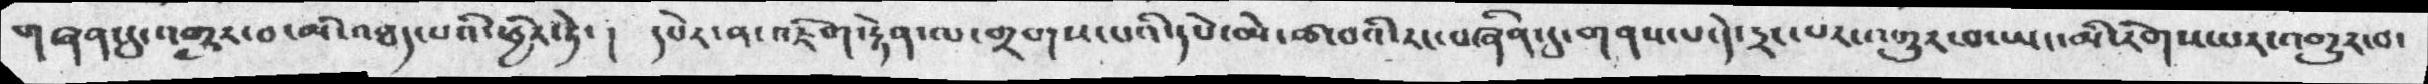གཞན་དུ་འགྱུར་བ་མི་འཐད་པའི་ཕྱིར་ཏེ་།  དཔེར་ན་འཇིག་རྟེན་ལ་གྲགས་པའི་དཔེ་མེ་ཚ་བའི་རང་བཞིན་དུ་གནས་པ་དེ་དྲང་པར་འགྱུར་བ་ཡང་མི་རིགས་པར་འགྱུར་བ་
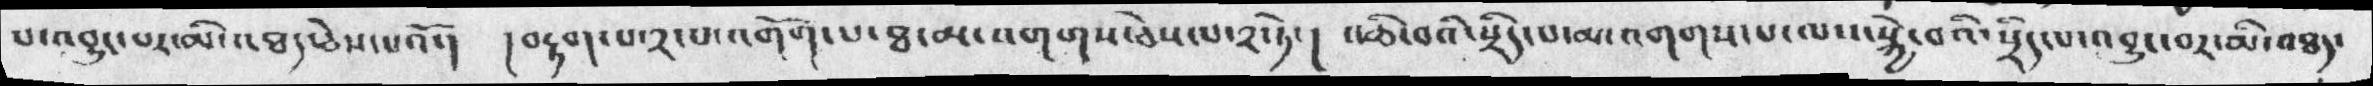པ་འབྱུང་པར་མི་འཐད་ཅེས་པའོ་།  །བརྟག་པ་༢་པ་འགོག་པ་ཐ་མ་འགག་ཅེས་པ་༢་ཏེ་།  འཆི་བའི་སྲིད་པ་མ་འགགས་པ་ལས་སྐྱེ་བའི་སྲིད་པ་འབྱུང་བར་མི་འཐད་
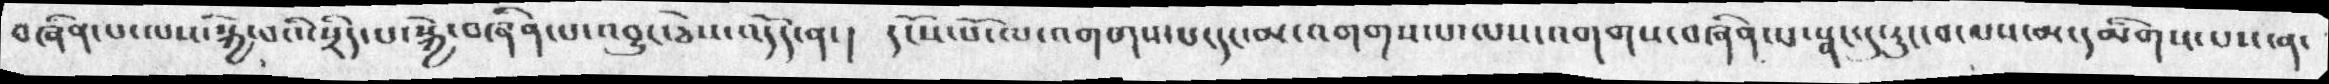བཞིན་པ་ལས་སྐྱེ་བའི་སྲིད་པ་སྐྱེ་བཞིན་པ་འབྱུང་ཅེས་འདོད་ན་། དངོས་པོ་ལ་འགགས་པ་དང་མ་འགགས་པ་ལས་འགགས་བཞིན་པ་སྣང་དུ་རུང་བ་པས་མ་དམིགས་པས་ན་
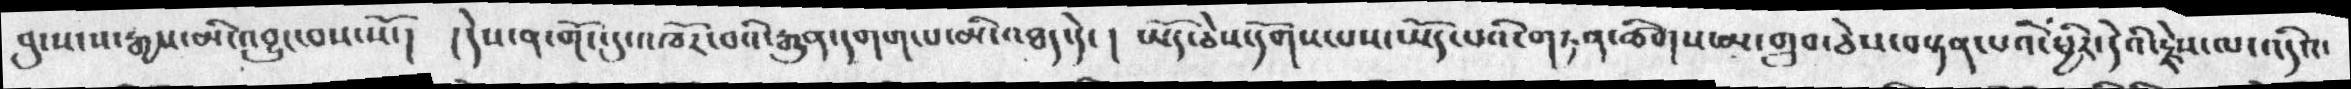བུ་སངས་རྒྱས་མི་འབྱུང་བས་སོ་།  །དེས་ན་གོང་དུ་འཁོར་བའི་རྒྱུན་དགག་པ་མི་འཐད་དེ་།  ཡོད་ཅེས་དོགས་པས་ཡོད་པའི་གཏན་ཚིགས་མ་གྲུབ་ཅེས་བསྟན་པའི་ཕྱིར་དེའི་རྗེས་ལ་འདིའ་
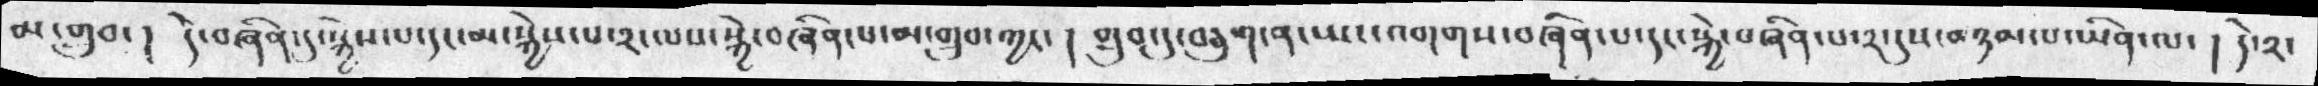མ་གྲུབ་། དེ་བཞིན་དུ་སྐྱེས་པ་དང་མ་སྐྱེས་པ་༢་ལས་སྐྱེ་བཞིན་པ་མ་གྲུབ་ཀྱང་།  གྲུབ་དུ་བཅུག་ན་ཡང་འགགས་བཞིན་པ་དང་སྐྱེ་བཞིན་པ་༢་དུས་མཉམ་པ་ཡིན་ལ་། དེ་༢་
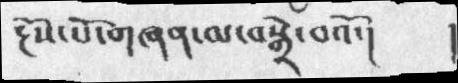རྔོས་པོ་གཞཉ་ལ་བསྒྲེ་བའོ་།  །
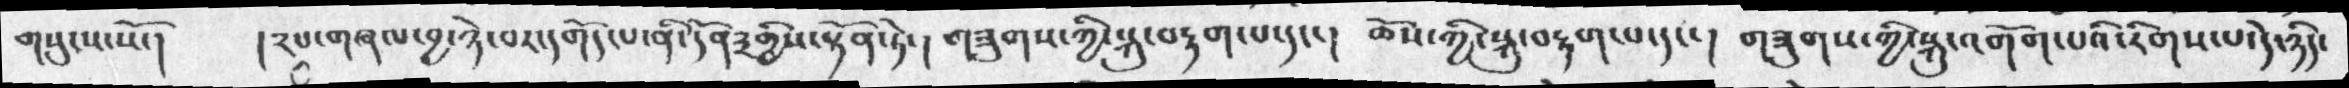གསུངས་སོ་།  །༢པ་གཞལ་བྱ་ཉེ་བར་དགོད་པ་ནི་དོན༣གྱིས་སྟོན་ཏེ་། ཆོས་ཀྱི་སྐུ་བརྟག་པ་དང་། གཟུགས་ཀྱི་སྐུ་འགོག་པའི་རིགས་པ་དེ་ཉིད་
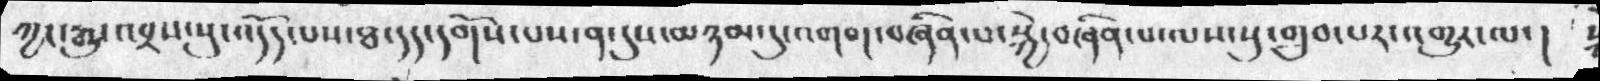ཀྱང་རྒྱུ་འབྲས་སུ་འདོད་པས་ཐ་དད་དགོས་པས་ན་དུས་མཉམ་དུ་འགག་བཞིན་པ་སྐྱེ་བཞིན་པ་ལས་སུ་གྲུབ་པར་འགྱུར་ལ་།
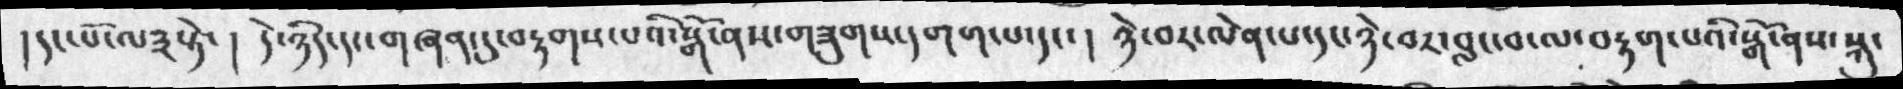།དང་པོ་ལ༣སྟེ་། དེ་ཉིད་དང་གཞན་དུ་བརྟགས་པའི་སྒོ་ནས་གཟུགས་དགག་པ་དང་། ཉེ་བར་ལེན་པ་དང་ཉེ་བར་བླང་བ་ལ་བརྟག་པའི་སྒོ་ནས་སྐུ་
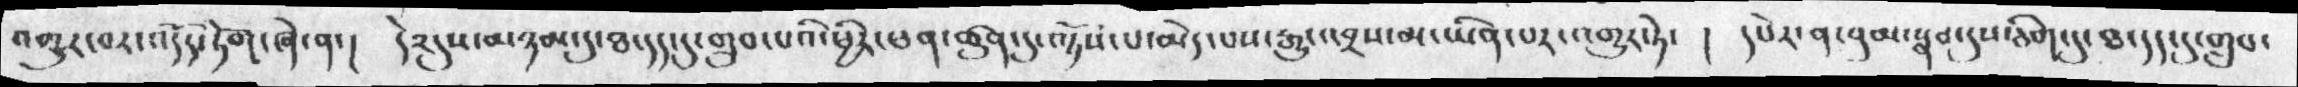འགྱུར་བར་འདོད་ཏོག་ཞེ་ན་། དེ༢དུས་མཉམ་དུ་ཐ་དད་དུ་གྲུབ་པའི་ཕྱིར་ཕན་ཚུན་དུ་ལྟོས་པ་མེད་པས་རྒྱུ་འབྲས་མ་ཡིན་པར་འགྱུར་ཏེ་ །  དཔེར་ན་བུམ་སྣབ་དུས་ཅིག་དུ་ཐ་དད་དུ་གྲུབ་
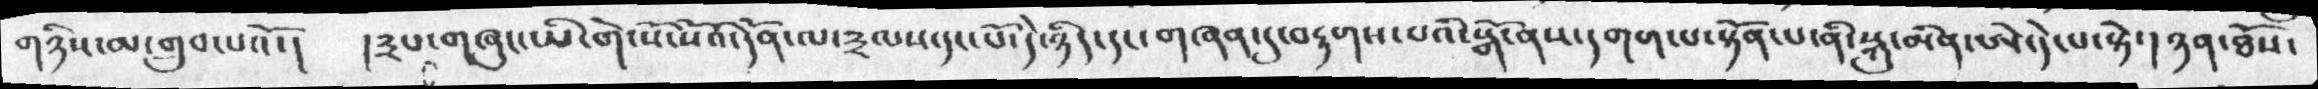གཉིས་མ་གྲུབ་པའོ་།  །༣པ་གཞུང་ཡི་གེ་སོ་སོའི་དོན་ལ་༣ལས་དང་པོ་དེ་ཉིད་དང་གཞན་དུ་བརྟགས་པའི་སྒོ་ནས་དགག་པ་སྟོན་པ་ནི་སྐུ་མིན་ཨེ་དེ་པ་སྟེ་།ཉན་ཐོས་
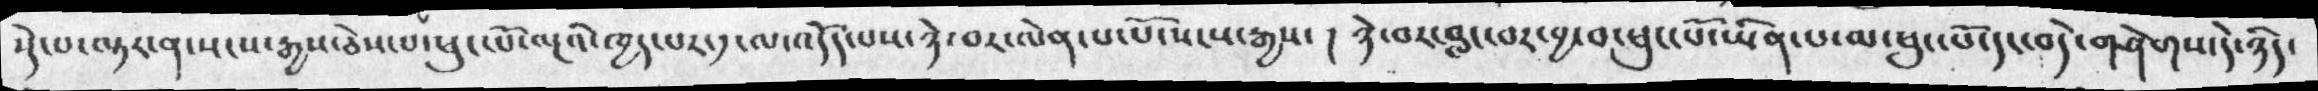སྡེ་པ་ལྟར་ན་སངས་རྒྱས་ཅེས་པ་ཕུང་པོ་ལྔའི་ཁྱད་པར་༡་ལ་འདོད་པས་ཉེ་བར་ལེན་པ་པོ་སངས་རྒྱས་། ཉེ་བར་བླང་བར་བྱ་བ་ཕུང་པོ་ཡིན་པ་ལ་ཕུང་པོ་དང་བདེ་གཤེགས་དེ་ཉིད་
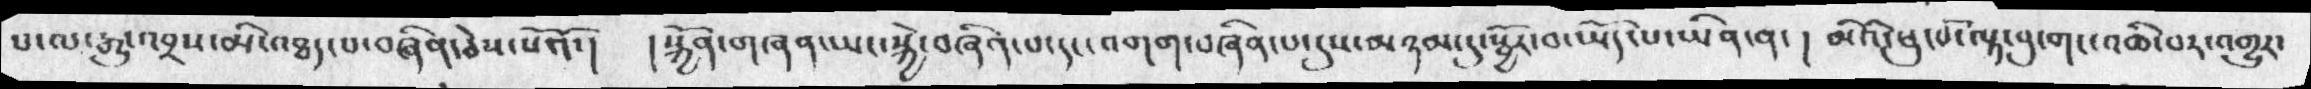པ་ལ་རྒྱུ་འབྲས་མི་འཐད་པ་བཞིན་ཅེས་པའོ་།  །སྐྱོན་གཞན་ཡང་སྐྱེ་བཞིན་པ་དང་འགག་བཞིན་པ་དུས་མཉམ་དུ་སྦྱོར་བ་ཡོད་པ་ཡིན་ན་། མིའི་ཕུང་པོ་ལྟ་བུ་གང་འཆི་བར་འགྱུར་
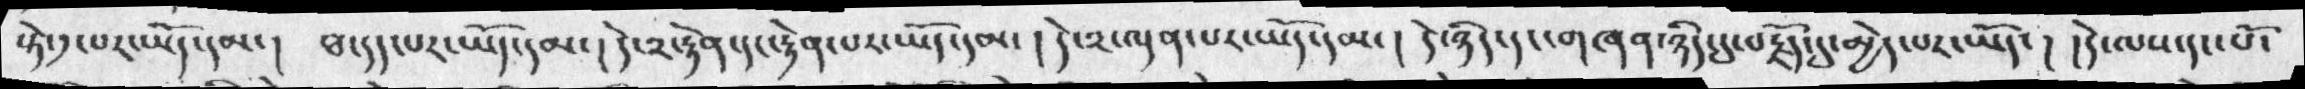སྟེ་༡་པར་ཡོད་དམ་། ཐ་དད་པར་ཡོད་དམ་། དེ་༢་རྟེན་དང་རྟེན་པར་ཡོད་དམ་། དེ་༢་ལྡན་པར་ཡོད་དམ་། དེ་ཉིད་དང་གཞན་ཉིད་དུ་བརྗོད་དུ་མྱེད་པར་ཡོད་། །དེ་ལས་དང་པོ་
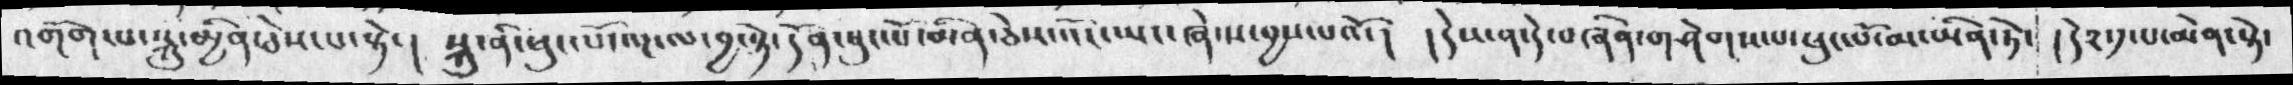འགོག་པ་སྐུ་མྱིན་ཅེས་པ་སྟེ་། སྐུ་ནི་ཕུང་པོ་ལྔ་ལ་བྱ་སྟེ་དོན་ཕུང་པོ་མིན་ཅེས་འོང་ཡང་ཞེ་ས་བྱས་པའོ་། །དེས་ན་དེ་བཞིན་གཤེགས་པ་ཕུང་པོ་མ་ཡིན་ཏེ་། དེ༢་༡་པ་མེན་སྟེ་
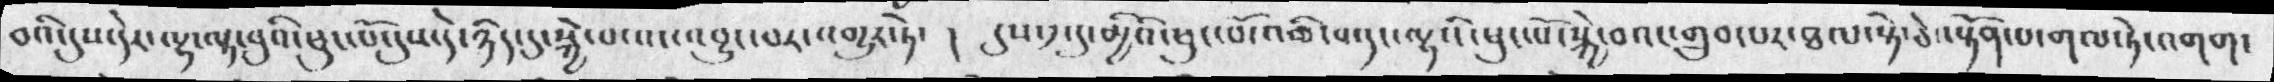བའི་དུས་དེར་ལྷ་ལྟ་བུའི་ཕུང་པོ་དུས་དེ་ཉིད་དུ་སྐྱེ་བ་འང་འབྱུང་འགྱུར་ཏེ་ ། དུས་༡་དུ་མྱིའི་ཕུང་པོ་འཆི་བ་དང་ལྷའི་ཕུང་པོ་སྐྱེ་བའང་གྲུབ་པར་ཐལ་སྟེ་ཅེ་སྟོན་པ་གལ་ཏེ་འགག་
